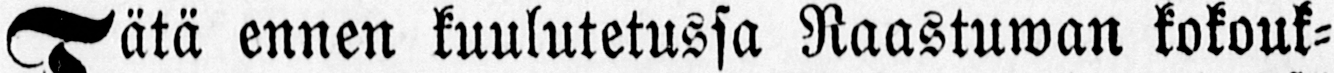Tätä ennen kuulutetussa Raastuwan kokouk-
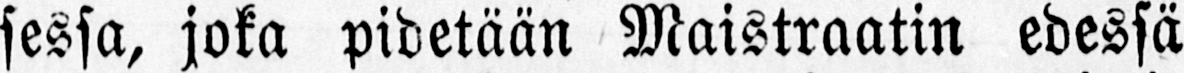sessa, joka pidetään Maistraatin edessä
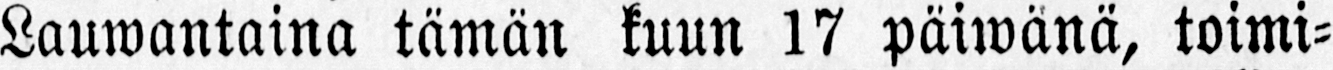Lauwantaina tämän kuun 17 päiwänä, toimi-
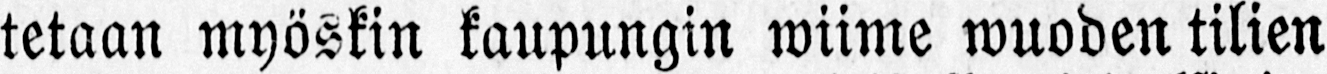tetaan myöskin kaupungin wiime wuoden tilien
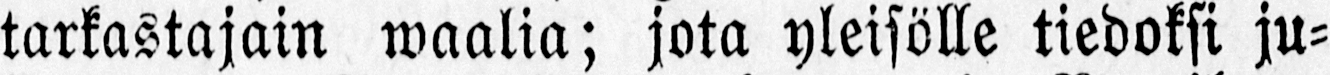tarkastajain waalia; jota yleisölle tiedoksi ju-
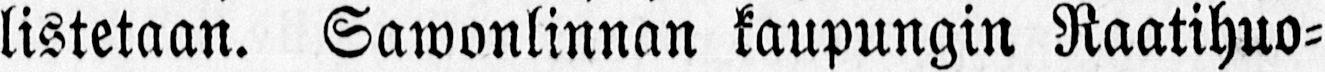listetaan. Sawonlinnan kaupungin Raatihuo-
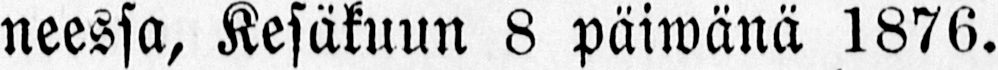neessa, Kesäkuun 8 päiwänä 1876.
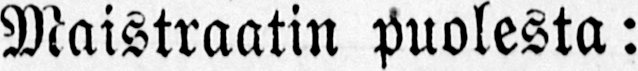Maistraatin puolesta:
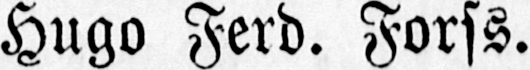Hugo Ferd. Forss.
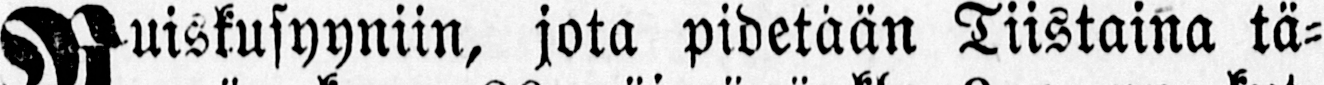Ruiskusyyniin, jota pidetään Tiistaina tä-
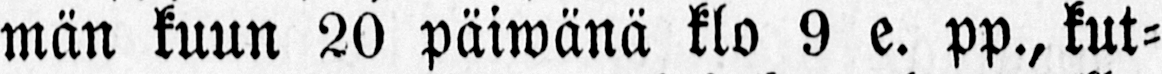män kuun 20 päiwänä klo 9 e. pp., kut-
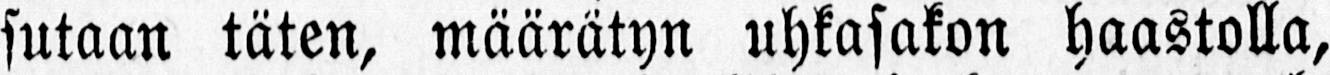sutaan täten, määrätyn uhkasakon haastolla,
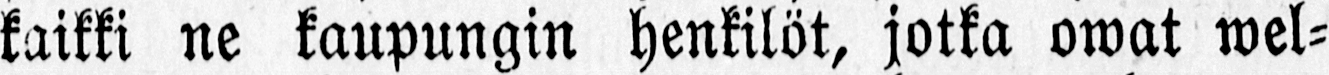kaikki ne kaupungin henkilöt, jotka owat wel-
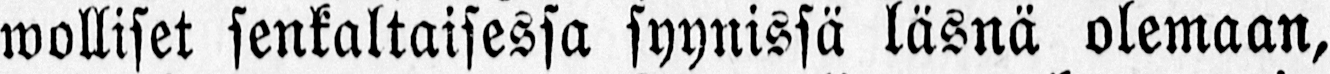wolliset senkaltaisessa syynissä läsnä olemaan,
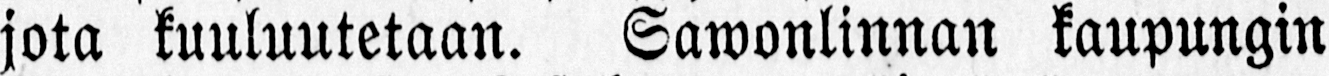jota kuuluutetaan. Sawonlinnan kaupungin
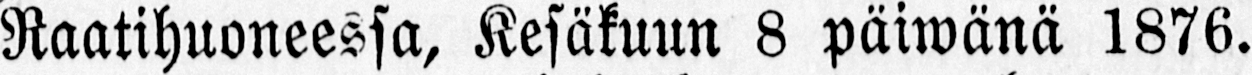Raatihuoneessa, Kesäkuun 8 päiwänä 1876.
